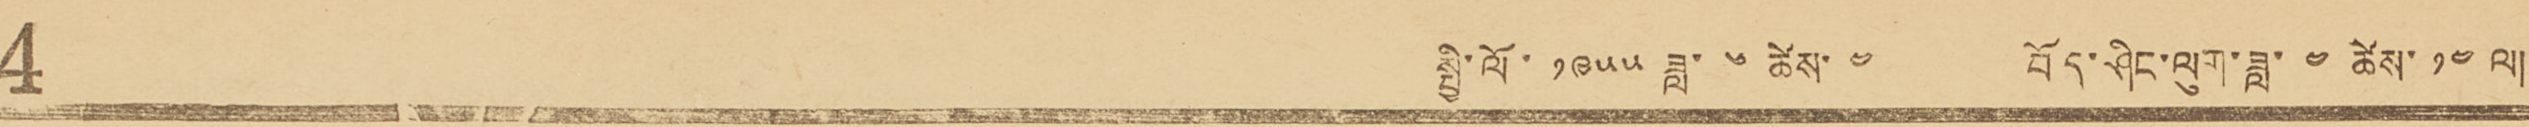4 སྤྱི་ལོ་ ༡༩༥༥ ཟླ་ ༦ ཚེས་ ༤ བོད་ཤིང་ལུག་ཟླ་ ༤ ཚེས་ ༡༤ ལ།
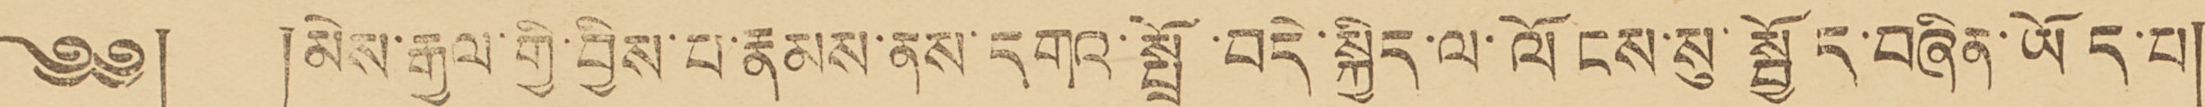༄༅། །མེས་རྒྱལ་གྱི་བྱིས་པ་རྣམས་ནས་དགའ་སྤྲོ་བདེ་སྐྱིད་ལ་ལོངས་སུ་སྤྱོད་བཞིན་ཡོད་པ།
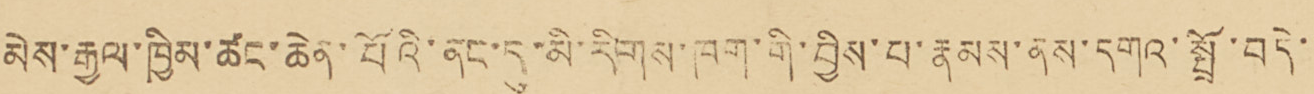མེས་རྒྱལ་ཁྱིམ་ཚང་ཆེན་པོའི་ནང་དུ་མི་རིགས་ཁག་གི་བྱིས་པ་རྣམས་ནས་དགའ་སྤྲོ་བདེ་་
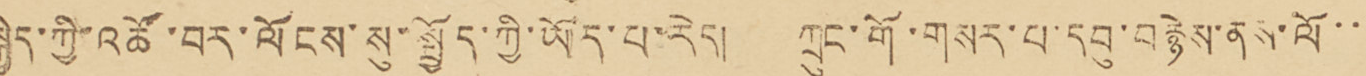སྐྱིད་ཀྱི་འཚོ་བར་ལོངས་སུ་སྤྱོད་ཀྱི་ཡོད་པ་རེད། ཀྲུང་གོ་གསར་པ་དབུ་བརྙེས་ནས་ལོ་་་
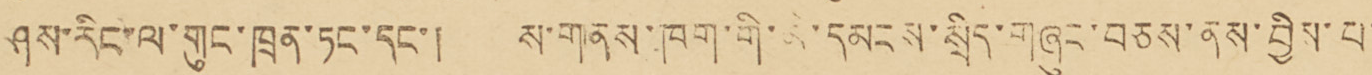ཤས་རིང་ལ་གུང་ཁྲན་ཏང་དང་། ས་གནས་ཁག་གི་མི་དམངས་སྲིད་གཞུང་བཅས་ནས་བྱིས་པ་་
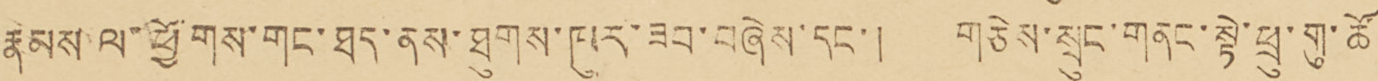རྣམས་ལ་ཕྱོགས་གང་ཐད་ནས་ཐུགས་ཁུར་ཟབ་གཞེས་དང་། གཅེས་སྲུང་གནང་སྟེ་ཕྲུ་གུ་ཚོ་
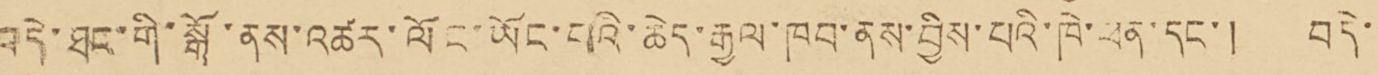བདེ་ཐང་གི་སྒོ་ནས་ལོང་ཡོང་པའི་ཆེད་རྒྱལ་ཁབ་ནས་བྱིས་པའི་ཁེ་ཕན་དང་། བདེ་་
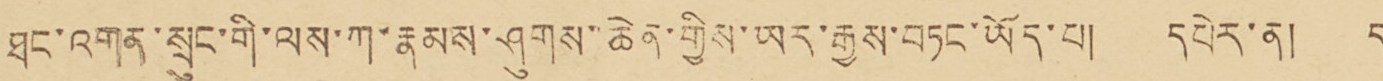ཐང་འགན་སྲུང་གི་ལས་ཀ་རྣམས་ཤུགས་ཆེན་གྱིས་ཡར་རྒྱས་བཏང་ཡོད་པ། དཔེར་ན། ད་
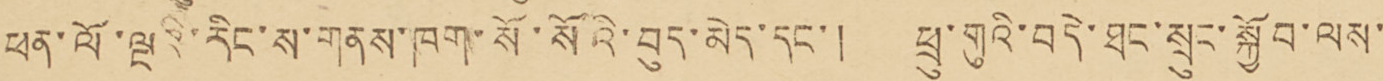ཕན་ལོ་ལྔའི་རིང་ས་གནས་ཁག་སོ་སོའི་བུད་མེད་དང་། ཕྲུ་གུའི་བདེ་ཐང་སྲུང་སྐྱོབ་ལས་་
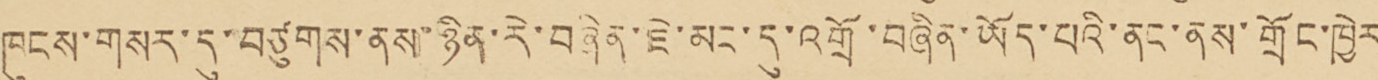ཁུངས་གསར་དུ་བཙུགས་ནས་ཉིན་རེ་བཞིན་ཇེ་མང་དུ་འགྲོ་བཞིན་ཡོད་པའི་ནང་ནས་གྲོང་ཁྱེར་
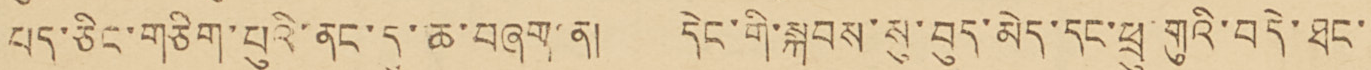པད་ཅིང་གཅིག་པུའི་ནང་དུ་ཆ་བཞག་ན། དེང་གི་སྐབས་སུ་བུད་མེད་དང་ཕྲུ་གུའི་བདེ་ཐང་་་
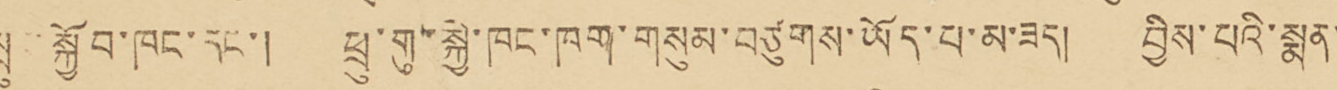སྲུང་སྐྱོབ་ཁང་དང་། ཕྲུ་གུ་སྐྱེ་ཁང་ཁག་གསུམ་བཙུགས་ཡོད་པ་མ་ཟད། བྱིས་པའི་སྨན་་་
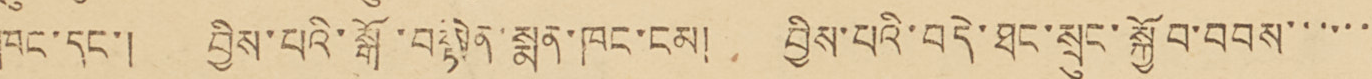ཁང་དང་། བྱིས་པའི་སྒོ་བསྟེན་སྨན་ཁང་ངམ། བྱིས་པའི་བདེ་ཐང་སྲུང་སྐྱོབ་བབས་་་་་་་
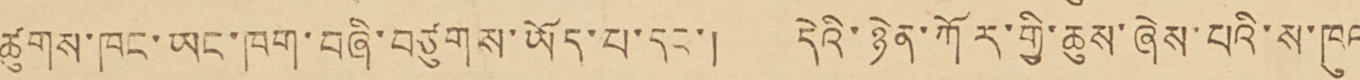ཚུགས་ཁང་ཡང་ཁག་བཞི་བཙུགས་ཡོད་པ་དང་། དེའི་ཉེན་ཀོར་གྱི་ཆུས་ཞེས་པའི་ས་ཁུལ་
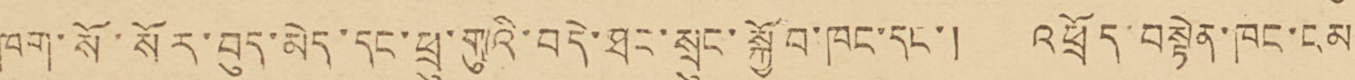ཁག་སོ་སོར་བུད་མེད་དང་ཕྲུ་གུའི་བདེ་ཐང་སྲུང་སྐྱོབ་ཁང་དང་། འཕྲོད་བསྟེན་ཁང་ངམ།
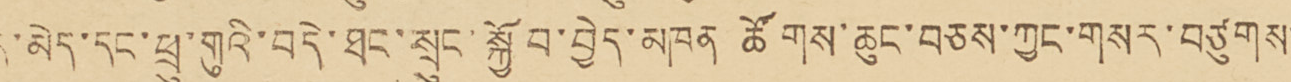བུད་མེད་དང་ཕྲུ་གུའི་བདེ་ཐང་སྲུང་སྐྱོབ་བྱེད་མཁན ཚོགས་ཆུང་བཅས་ཀྱང་གསར་བཙུགས་་
